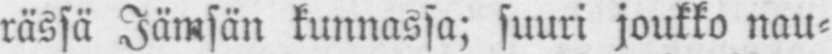rässä Jämsän kunnassa; suuri joukko nau-
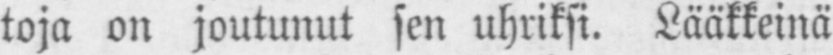toja on joutunut sen uhriksi. Lääkkeinä
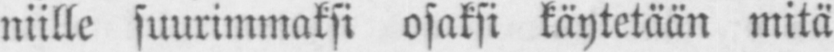niille suurimmaksi osaksi käytetään mitä
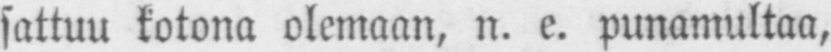sattuu kotona olemaan, n. e. punamultaa,
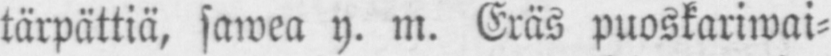tärpättiä, sawea y. m. Eräs puoskariwai-
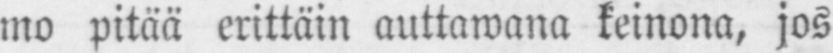mo pitää erittäin auttawana keinona, jos
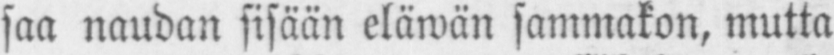saa naudan sisään eläwän sammakon, mutta
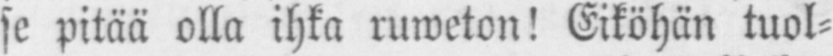se pitää olla ihka ruwetön! Eiköhän tuol-
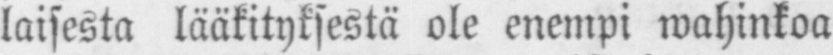laisesta lääkityksestä ole enempi wahinkoa
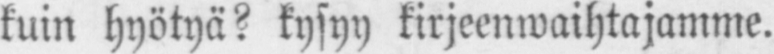kuin hyötyä? kysyy kirjeenwaihtajamme.
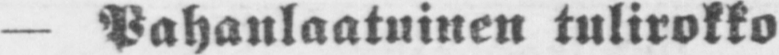— Pahanlaatuinen tulirokko
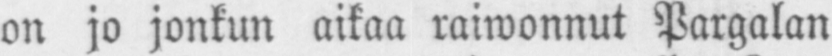on jo jonkun aikaa raiwonnut Pargalan
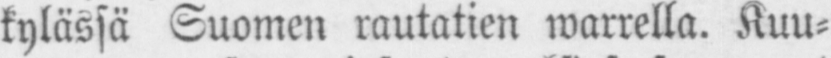kylässä Suomen rautatien warrella. Kuu-
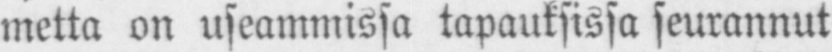metta on useammissa tapauksissa seurannut
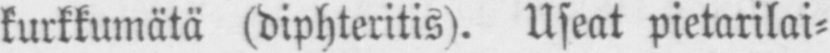kurkkumätä (diphteritis). Useat pietarilai-
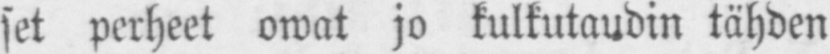set perheet owat jo kulkutaudin tähden
